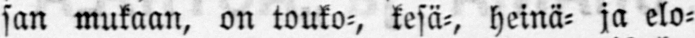san mukaan, on touko-, kesä-, heinä- ja elo-
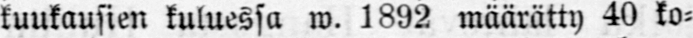kuukausien kuluessa w. 1892 määrätty 40 ko-
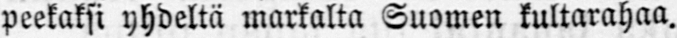peekaksi yhdeltä markalta Suomen kultarahaa.
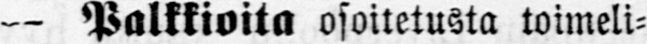— Palkkioita osoitetusta toimeli-
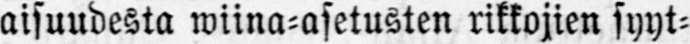aisuudesta wiina-asetusten rikkojien syyt-
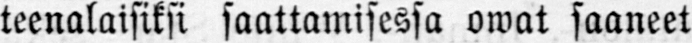teenalaisiksi saattamisessa owat saaneet
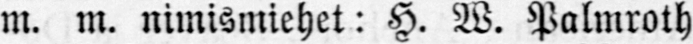m. m. nimismiehet: H. W. Palmroth
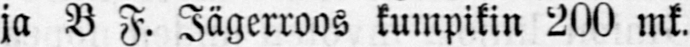ja B F. Jägerroos kumpikin 200 mk.
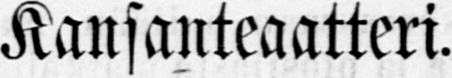Kansanteaatteri.
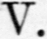V.
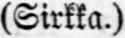(Sirkka.)
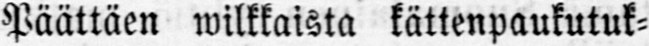Päättäen wilkkaista kättenpaukutuk-
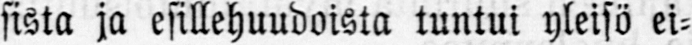sista ja esillehuudoista tuntui yleisö ei-
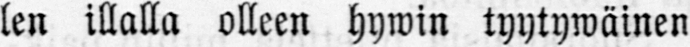len illalla olleen hywin tyytywäinen
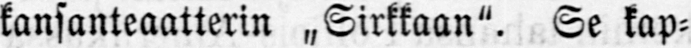kansanteaatterin „Sirkkaan". Se kap-
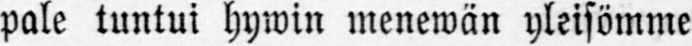pale tuntui hywin menewän yleisömme
